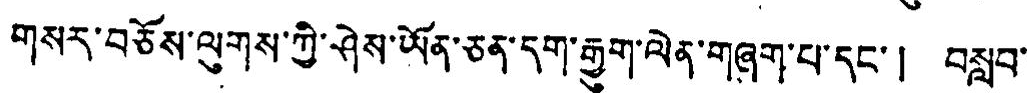གསར་བཅོས་ལུགས་ཀྱི་ཤེས་ཡོན་ཅན་དག་རྒྱུག་ལེན་གཞག་པ་དང་། བསླབ་
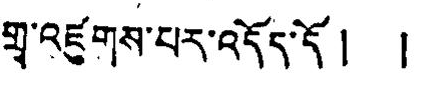གྲྭ་འཛུགས་པར་འདོད་དོ། །
